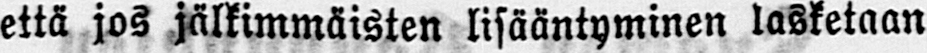että jos jälkimmäisten lisääntyminen lasketaan
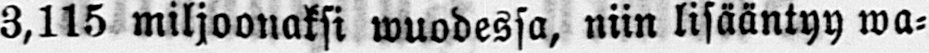3,115 miljoonaksi wuodessa, niin lisääntyy wa-
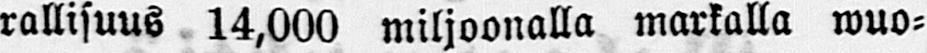rallisuus 14,000 miljoonalla markalla wuo-
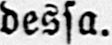dessa.
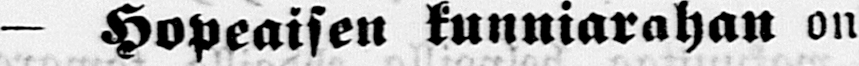— Hopeaisen kunniarahan on
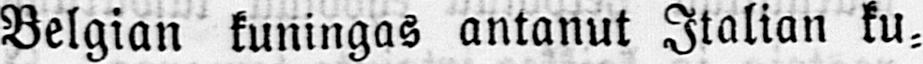Belgian kuningas antanut Italian ku-
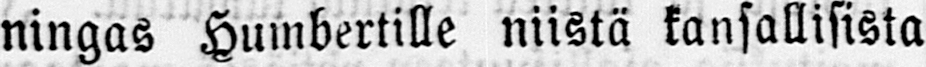ningas Humbertille niistä kansallisista
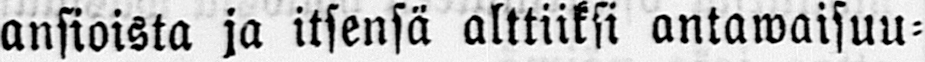ansioista ja itsensä alttiiksi antawaisuu-
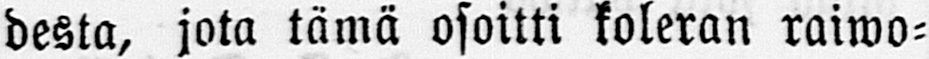desta, jota tämä osoitti koleran raiwo-
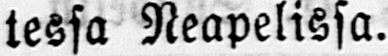tessa Neapelissa.
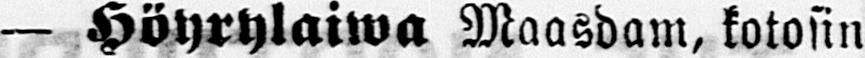— Höyrylaiwa Maasdam, kotosin
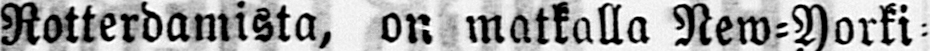Rotterdamista, on matkalla New-Yorki-
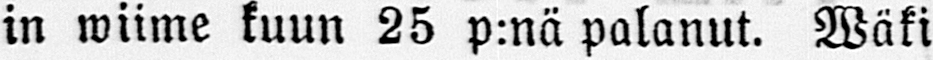in wiime kuun 25 p:nä palanut. Wäki
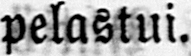pelastui.
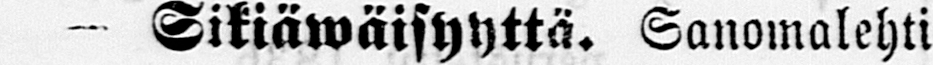— Sikiäwäisyyttä. Sanomalehti
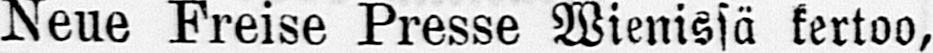Neue Freise Presse Wienissä kertoo,
